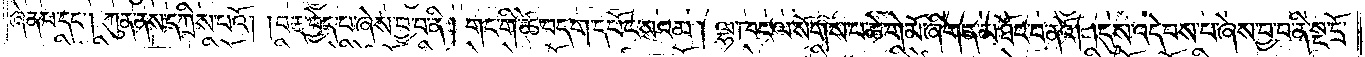ཞེན་པ་དང༌། ཀུན་ནས་དཀྲིས་པའོ། །བརྡ་བྱེད་པ་ཞེས་བྱ་བ་ནི། གང་གི་ཚེ་བདག་དཔོང་སའམ། ལྷ་ཁང་ལ་སོགས་པ་ཆེ་གེ་མོ་ཞིག་ན་མཐོང་བ་ནའོ། །དུས་འདེབས་པ་ཞེས་བྱ་བ་ནི་སྔ་དྲོ་
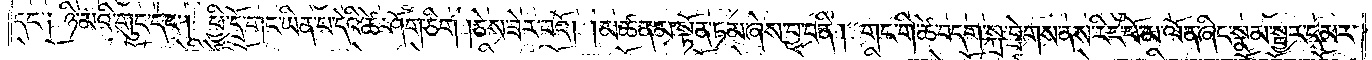དང་༑ ཉི་མའི་གུང་དང༌། ཕྱི་དྲོ་གང་ཡིན་པ་དེའི་ཚེ་ཤོག་ཅིག །ཅེས་ཟེར་བའོ། །མཚན་མ་སྟོན་ཏམ་ཞེས་བྱ་བ་ནི། གང་གི་ཚེ་བདག་སྐྲ་བྲེགས་ནས་རིང་པོ་མ་ལོན་ཞིང་སྣམ་སྦྱར་དམར་
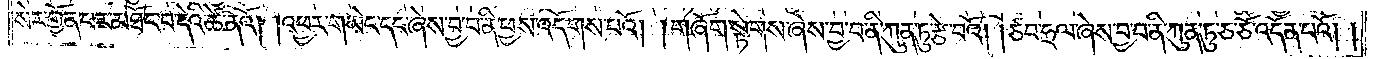སེར་གྱོན་པར་མཐོང་བ་དེའི་ཚེ་ནའོ། །འཕྱར་གཡེང་དང་ཞེས་བྱ་བ་ནི་ཕྱས་འདོགས་པའོ། །གཞོག་སྟེགས་ཞེས་བྱ་བ་ནི་ཀུན་ཏུ་རྩེ་བའོ། །ཙབ་ཧྲལ་ཞེས་བྱ་བ་ནི་ཀུན་ཏུ་ཅ་ཅོ་འདོན་པའོ། །
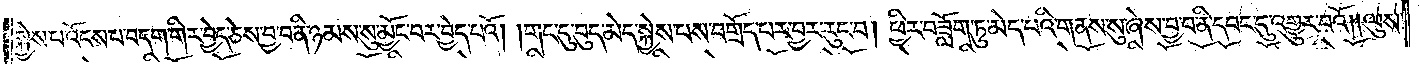སྐྱེས་པ་འོངས་པ་བདག་གིར་བྱེད་ཅེས་བྱ་བ་ནི་ཉམས་སུ་མྱོང་བར་བྱེད་པའོ། །གང་དུ་བུད་མེད་སྐྱེས་པས་བགྲོད་པར་བྱར་རུང་བ། ཕྱིར་བཟློག་ཏུ་མེད་པའི་གནས་སུ་ཞེས་བྱ་བ་ནི་དབང་དུ་འགྱུར་བའོ། །ལུས་
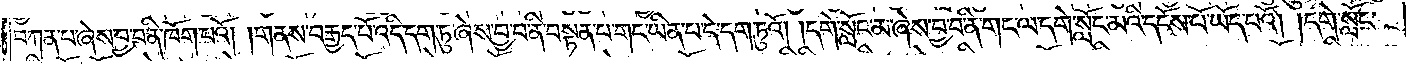བཀན་པ་ཞེས་བྱ་བ་ནི་ཁོག་པའོ། །གནས་བརྒྱད་པོ་འདི་དག་ཏུ་ཞེས་བྱ་བ་ནི་བསྟན་པ་གང་ཡིན་པ་དེ་དག་ཏུའོ། །དགེ་སློང་མ་ཞེས་བྱ་བ་ནི་གང་ལ་དགེ་སློང་མའི་དངོས་པོ་ཡོད་པའོ། །དགེ་སློང་
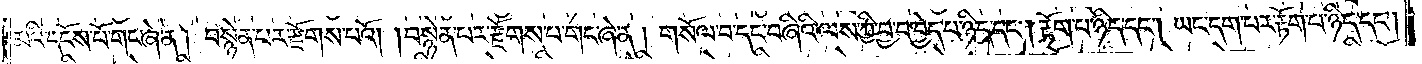མའི་དངོས་པོ་གང་ཞེ་ན། བསྙེན་པར་རྫོགས་པའོ། །བསྙེན་པར་རྫོགས་པ་གང་ཞེ་ན། གསོལ་བ་དང་བཞིའི་ལས་ཀྱི་བྱ་བ་བྱེད་པ་ཉིད་དང༌། རྟོག་པ་ཉིད་དང༌། ཡང་དག་པར་རྟོག་པ་ཉིད་དང༌།
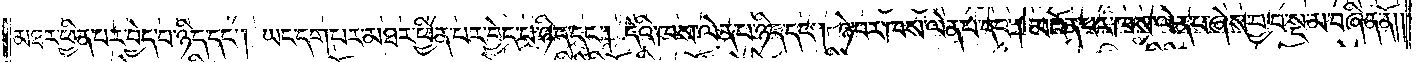མཐར་ཕྱིན་པར་བྱེད་པ་ཉིད་དང༌། ཡང་དག་པར་མཐར་ཕྱིན་པར་བྱེད་པ་ཉིད་དང༌། དེའི་ཁས་ལེན་པ་ཉིད་དང༌། ཉེ་བར་ཁས་ལེན་པ་དང༌། མངོན་པར་ཁས་ལེན་པ་ཞེས་བྱ་བ་སྔ་མ་བཞིན་ནོ། །
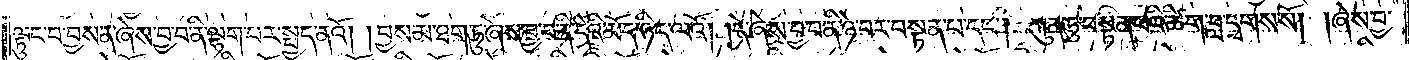ལྟུང་བ་བྱས་ན་ཞེས་བྱ་བ་ནི་ལྷག་པར་སྤྱད་ནའོ། །བྱས་མ་ཐག་ཏུ་ཞེས་བྱ་བ་ནི་དེའི་མོད་ཉིད་ལའོ། །དེ་ཞེས་བྱ་བ་ནི་ཉེ་བར་བསྟན་པ་དང༌། ཀུན་ཏུ་བསྟན་པའི་ཚིག་བླ་དྭགས་སོ། །ཞེས་བྱ་
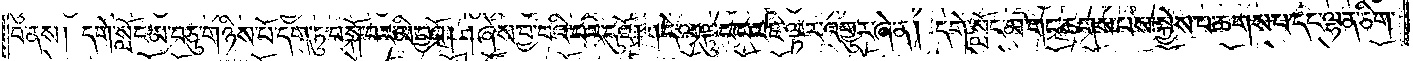བ་ནས། དགེ་སློང་མ་བཅུ་གཉིས་པོ་དག་ཏུ་བསྐོ་བར་མི་བྱའོ། །ཞེས་བྱ་བའི་བར་དུའོ། །དེ་ལ་ལྟུང་བར་ཇི་ལྟར་འགྱུར་ཞེ་ན། དགེ་སློང་མ་གང་ཆགས་པས་སྐྱེས་པ་ཆགས་པ་དང་ལྷན་ཅིག་
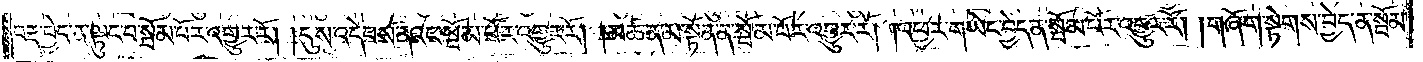བརྡ་བྱེད་ན་ལྟུང་བ་སྦོམ་པོར་འགྱུར་རོ། །དུས་འདེབས་ནའང་སྦོམ་པོར་འགྱུར་རོ། །མཚན་མ་སྟོན་ན་སྦོམ་པོར་འགྱུར་རོ། །འཕྱར་གཡེང་བྱེད་ན་སྦོམ་པོར་འགྱུར་རོ། །གཞོག་སྟེགས་བྱེད་ན་སྦོམ་
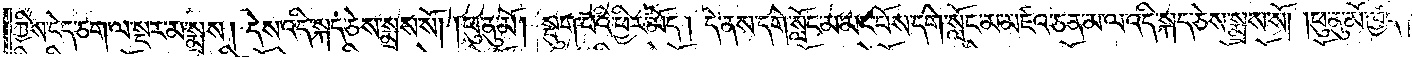ཀྱིས་ངེད་ཅག་ལ་སྔར་མ་སྨྲས། དེས་འདི་སྐད་ཅེས་སྨྲས་སོ། །ཕུ་ནུ་མོ། སྡུག་པའི་ཕྱིར་མོད། དེ་ནས་དགེ་སློང་མ་མང་པོས་དགེ་སློང་མ་མཛའ་ཅན་མ་ལ་འདི་སྐད་ཅེས་སྨྲས་སོ། །ཕུ་ནུ་མོ་ཁྱོད་
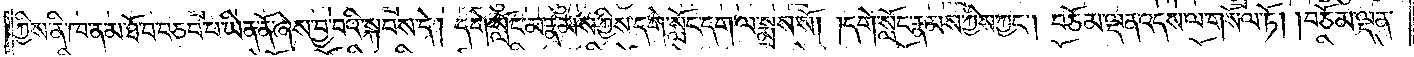ཀྱིས་ནི་ཁ་ན་མ་ཐོ་བ་བཅབ་པ་ཡིན་ནོ་ཞེས་བྱ་བའི་སྐབས་དེ། དགེ་སློང་མ་རྣམས་ཀྱིས་དགེ་སློང་དག་ལ་སྨྲས་སོ། །དགེ་སློང་རྣམས་ཀྱིས་ཀྱང༌། བཅོམ་ལྡན་འདས་ལ་གསོལ་ཏོ། །བཅོམ་ལྡན་
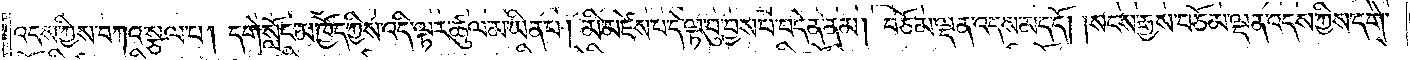འདས་ཀྱིས་བཀའ་སྩལ་པ། དགེ་སློང་མ་ཁྱོད་ཀྱིས་འདི་ལྟར་ཚུལ་མ་ཡིན་པ། མི་མཛེས་པ་དེ་ལྟ་བུ་བྱས་པ་བདེན་ནམ། བཅོམ་ལྡན་འདས་མད་དོ། །སངས་རྒྱས་བཅོམ་ལྡན་འདས་ཀྱིས་དགེ་
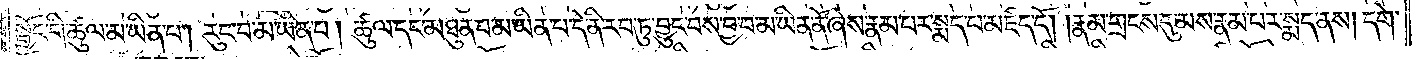སྦྱོང་གི་ཚུལ་མ་ཡིན་པ། རུང་བ་མ་ཡིན་པ། ཚུལ་དང་མཐུན་པ་མ་ཡིན་པ་དེ་ནི་རབ་ཏུ་བྱུང་བས་བྱ་བ་མ་ཡིན་ནོ་ཞེས་རྣམ་པར་སྨད་པ་མཛད་དོ། །རྣམ་གྲངས་དུ་མས་རྣམ་པར་སྨད་ནས། དགེ་
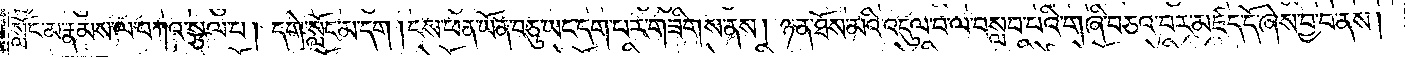སློང་མ་རྣམས་ལ་བཀའ་སྩལ་པ། དགེ་སློང་མ་དག །ངས་ཕན་ཡོན་བཅུ་ཡང་དག་པར་གཟིགས་ནས། ཉན་ཐོས་མའི་འདུལ་བ་ལ་བསླབ་པའི་གཞི་བཅའ་བར་མཛད་དོ་ཞེས་བྱ་བ་ནས།
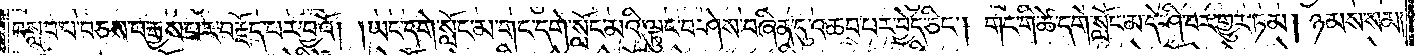བསླབ་པ་བཅས་པ་རྒྱས་པར་བརྗོད་པར་བྱའོ། །ཡང་དགེ་སློང་མ་གང་དགེ་སློང་མའི་ལྟུང་བ་ཤེས་བཞིན་དུ་འཆབ་པར་བྱེད་ཅིང༌། གང་གི་ཚེ་དགེ་སློང་མ་དེ་ཤི་བར་གྱུར་ཏམ། ཉམས་སམ་
